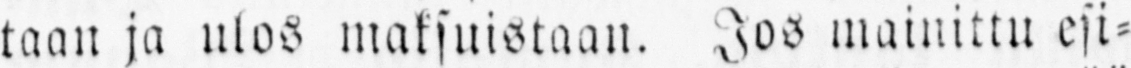taan ja ulos maksuistaan. Jos mainittu esi-
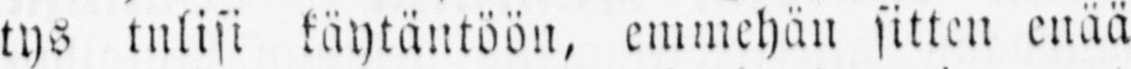tys tulisi käytäntöön, emmehän sitten enää
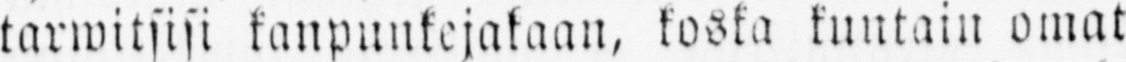tarwitsisi kanpunkejakaan, koska kuntain omat
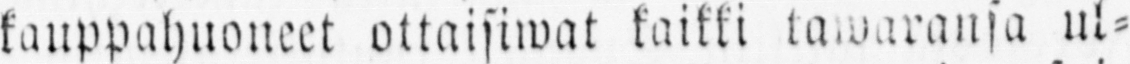kauppahuoneet ottaisiwat kaikki tawaransa ul-
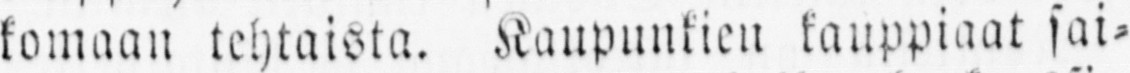komaan tehtaista. kauppiaat sai-
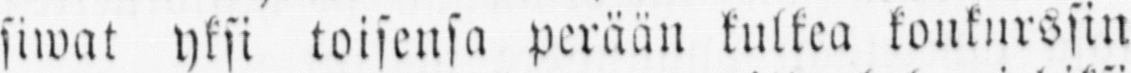siwat yksi toisensa perään kulkea konkurssin
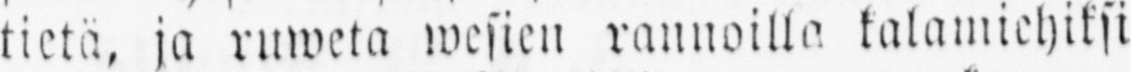tietä, ja ruweta wesien rannoilla kalamiehiksi
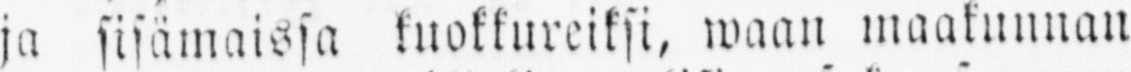ja sisämaissa kuokkureiksi, waan maakunnan
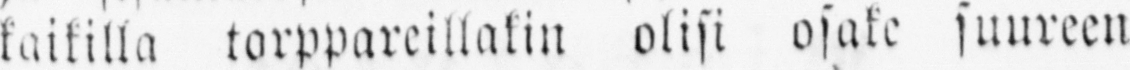kaikilla torppareillakin olisi osake suureen
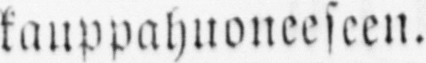kauppahuoneeseen.
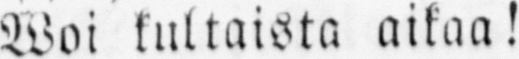Woi kultaista aikaa!
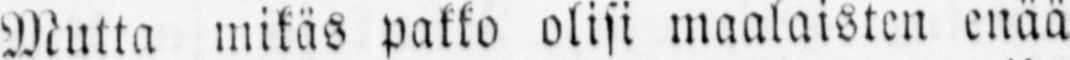Mutta mikäs pakko olisi maalaisten enää
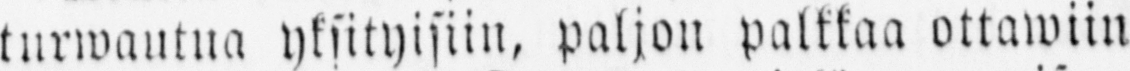turwautua yksityisiin, paljon palkkaa ottawiin
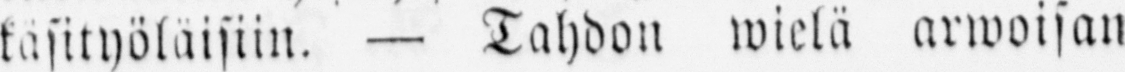käsityöläisiin. — Tahdon wielä arwoisan
